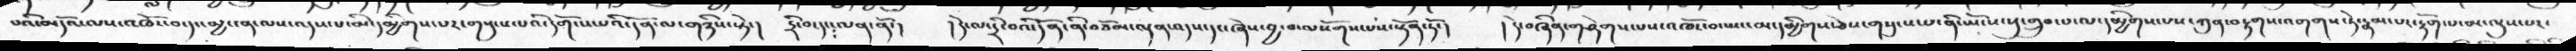པའི་མདོའ་ལས་འཁོར་བ་དང་མྱ་ངན་ལས་འདས་པ་མི་དམྱིགས་པར་གསུངས་པའི་དགོངས་པའི་དོན་ལ་གཉིས་སྟེ་།  དྲི་བ་དང་ལན་ནོ་།  །དེ་ལ་དྲི་བའི་དོན་ནི་བཅོམ་ལྡན་འདས་དང་ཞེས་བྱ་བ་ལསོགས་པས་སྟོན་ཏོ་།  །དེ་བཞིན་གཤེགས་པས་འཁོར་བ་ཡང་མ་དམྱིགས་ཅེས་གསུངས་པ་ནི་ཡོངས་སུ་གྲུབ་པ་ལ་དམྱིགས་པས་ཀུན་བརྟག་ས་འགགས་ཏེ་རྣམ་པར་རྟོག་པ་མ་ལུས་པར་
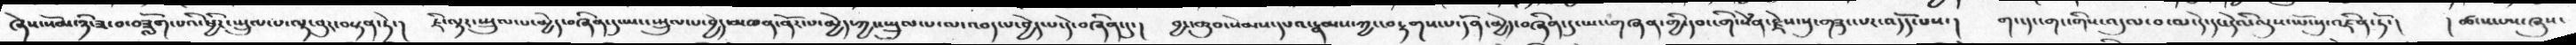ཞེས་སོམ་ཉི་ཟླ་བ་བཟློག་པའི་ཕྱིར་སྤྲུལ་པ་ལྟ་བུར་བསྟན་ཏེ་།  ཇི་ལྟར་སྤྲུལ་པ་མྱེད་བཞིན་དུ་ཡང་སྤྲུལ་པ་བྱེད་མཁན་ནོར་པ་མྱེད་ཀྱང་སྤྲུལ་པ་ལ་འབད་པ་བྱེད་པ་དེ་བཞིན་དུ་།  བྱང་ཆུབ་སེམས་དཔའ་རྣམས་ཀྱང་བརྟགས་པ་དོན་མྱེད་བཞིན་དུ་ཡང་གཞན་གྱི་དབང་གི་སེཾན་རྗེས་སུ་གཟུང་པར་འདོད་པས་།  གང་དང་གང་གིས་འདུལ་བ་ལ་དེ་དང་དེའི་ལུས་ཡོངསུ་འཛིན་ཏོ་།  ། ཚངས་ལ་ཞུས་
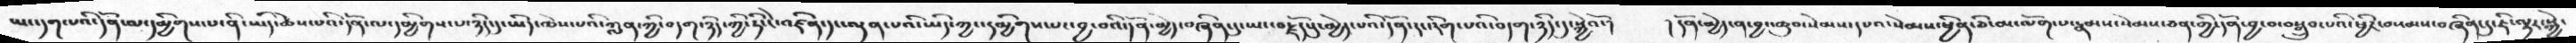ཡང་དག་པའི་དོན་ལ་དམྱིགས་པ་ནི་ཡིད་ཆེས་པའི་དོན་ལ་དམྱིགས་པ་ཉིད་དུ་ཡིད་ཆེས་པའི་ཀླན་ཀྱི་བདག་ཉིད་ཀྱི་ཏི་ངེ་འཛིན་དང་ལྡན་པའི་ཡིད་ཀྱང་དམྱིགས་པར་བྱ་བའི་དོན་མྱེད་བཞིན་དུ་ཡང་བརྗོད་དུ་མྱེད་པའི་དོན་དང་རིག་པའི་བདག་ཉིད་དུ་སྐྱེའོ་།  །དོན་མྱེད་ན་བྱང་ཆུབ་སེམས་དཔའ་སེམས་ཕྱིན་ཅི་མ་ལོག་པ་རྣམས་སེམས་ཅན་གྱི་དོན་བྱ་བ་བསྒྲུབ་པའི་ཕྱིར་བསམས་བཞིན་དུ་ཇི་ལྟར་སྐྱེ་
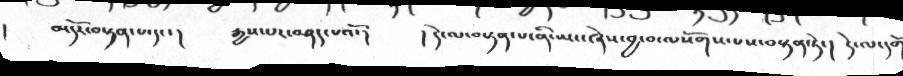།     མདོར་བསྟན་པ་དང་།   རྒྱས་པར་བཤད་པའོ་།   །དེ་ལ་བསྟན་པ་ནི་ཡང་ཞེས་བྱ་བ་ལསོགས་པས་བསྟན་ཏེ་།   དེ་ལ་དགོ
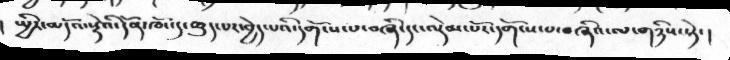།    སྤྱིར་མདོའ་སྟེའི་དོན་ཁོང་དུ་ཆུད་པར་བྱེད་པའི་དགོངས་པ་བཞི་དང་ལྡེམ་པོར་དགོངས་པ་བཞིའ་ལ་གཉིས་སྟེ་།
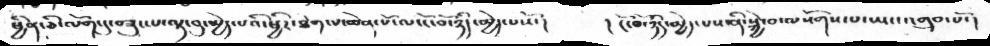ཕྱིན་ཅི་ལོག་དུ་བཟུང་པ་ལྟ་བུ་མྱེད་པའི་ཕྱིར་ཐེག་པ་ཆེན་པོ་ལ་ངོ་བོ་ཉིད་མྱེད་པསོ་།    །  ངོ་བོ་ཉིད་མྱེད་པས་ནི་སྐྱེ་བ་ལསོགས་པ་ཡང་འགྲུབ་པོ་།
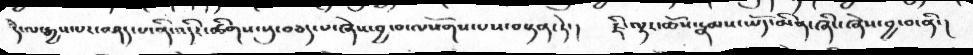དེ་ལ་རྒྱས་པར་བཤད་པ་ནི་འདིར་ཚིགས་སུ་བཅད་པ་ཞེས་བྱ་བ་ལསོགས་པས་བསྟན་ཏེ་།   ཇི་ལྟར་ཆོས་རྣམས་ཡོད་མིན་ཞིང་ཞེས་བྱ་བ་ནི་།
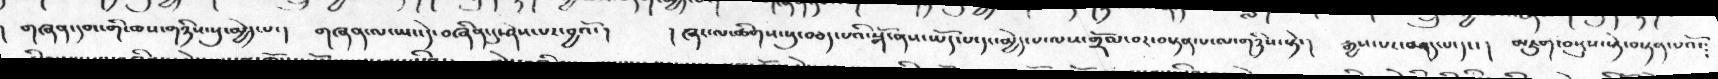གཞན་དབང་གི་ཆས་གཉིས་སུ་མྱེད་པ་།   གཞན་ལ་ཡང་དེ་བཞིན་དུ་ཤེས་པར་བྱའོ་།     ། ཞར་ལ་ཚིགས་སུ་བཅད་པའི་སྒོ་ནས་ཡོད་པ་དང་མྱེད་པ་ལས་གྲོལ་བར་བསྟན་པ་ལ་གཉིས་སྟེ་།    རྒྱས་པར་བཤད་པ་དང་།   མཇུག་བསྡུས་ཏེ་བསྟན་པའོ་།
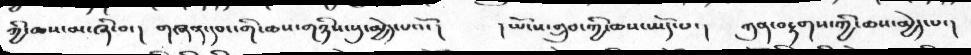ཀྱི་ཆས་མ་ཞི་བ་།   གཞན་དབང་གི་ཆས་གཉིས་སུ་མྱེད་པའོ་།   ། ཡོངས་གྲུབ་ཀྱི་ཆས་ཡོད་པ་།   ཀུན་བརྟགས་ཀྱི་ཆས་མྱེད་པ་།
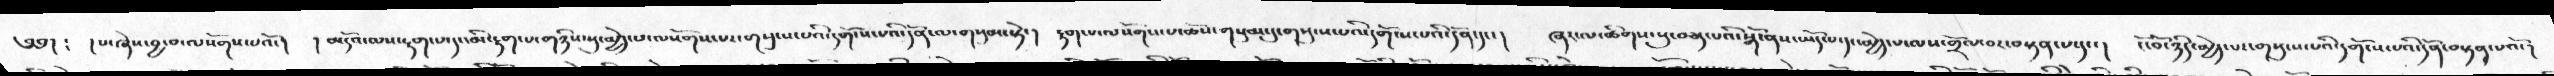༄༅། ༴  །པ་ཞེས་བྱ་བ་ལསོགས་པའོ་།  །མདོའ་ལས་རྟག་པ་དང་མི་རྟག་པ་གཉིས་སུ་མྱེད་པ་ལསོགས་པར་གསུངས་པའི་དགོངས་པའི་དོན་ལ་གསུམ་སྟེ་།   རྟག་པ་ལསོགས་པ་ཆོས་གསུམ་དུ་གསུངས་པའི་དགོངས་པའི་དོན་དང་།  ཞར་ལ་ཚིགས་སུ་བཅད་པའི་སྒོ་ནས་ཡོད་པ་དང་མྱེད་པ་ལས་གྲོལ་བར་བསྟན་པ་དང་།   ངོ་བོ་ཉིད་མྱེད་པར་གསུངས་པའི་དགོངས་པའི་དོན་བསྟན་པའོ་།
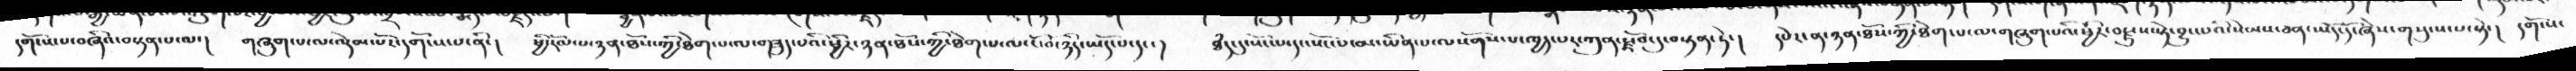དགོངས་པ་བཞིའ་བསྟན་པ་ལ་།   གཞུག་པ་ལ་ལྡེམ་པོར་དགོངས་པ་ནི་།   ཕྱི་རོལ་པ་ཉན་ཐོས་ཀྱི་ཐེག་པ་ལ་གཟུད་པའི་ཕྱིར་ཉན་ཐོས་ཀྱི་ཐེག་པ་ལ་ངོ་བོ་ཉིད་ཡོད་པ་དང་།    ཐཾད་དུ་སོང་པ་དང་སོང་པ་མ་ཡིན་པ་ལསོགས་པ་ཁྱད་པར་ཀུན་རྫོབ་དུ་བསྟན་ཏེ་།  དཔེར་ན་ཉན་ཐོས་ཀྱི་ཐེག་པ་ལ་གཞུག་པའི་ཕྱིར་བརྫུས་སྟེ་བྱུང་པའི་སེམས་ཅན་ཡོད་དོ་ཞེས་གསུངས་པ་སྟེ་།  དགོངས་
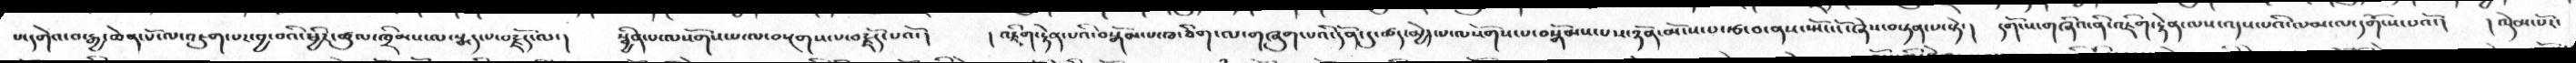པ་དགེའ་བ་རྒྱ་ཆེན་པོ་ལ་འཇུག་པར་བྱ་བའི་ཕྱིར་ཚུལ་ཁྲིམས་ལ་སྨད་པ་བརྗོད་ལ་།   སྦྱིན་པ་ལསོགས་པ་ལ་བསྔགས་པ་བརྗོད་པའོ་།  །འཇིག་རྟེན་པའི་བསྒོམ་པ་ཁ་ཅིག་ལ་གཞུག་པའི་དོན་དུ་ཚད་མྱེད་པ་ལསོགས་པ་བསྒོམ་པས་ཉོན་མོངས་པ་རྩ་བ་ནས་སྤོང་ངོ་ཞེས་བསྟན་པ་སྟེ་། དགོངས་གཞིའ་ནི་འཇིག་རྟེན་ལས་འདས་པའི་ལམ་ལ་དགོངས་པའོ་།  །ལྡེམ་པོར་
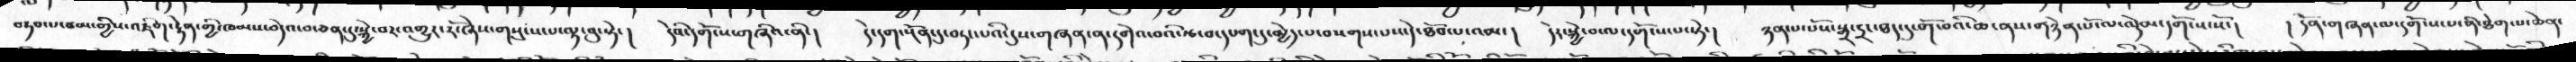བཏབ་པ་རྩམ་གྱིས་འཇིག་རྟེན་གྱི་ཁམས་བདེའ་བ་ཅན་དུ་སྐྱེ་བར་འགྱུར་རོ་ཞེས་གསུངས་པ་ལྟ་བུ་སྟེ་།  དེའི་དགོངས་གཞིའ་ནི་།   དེ་དག་སྔོན་དུ་བཏང་པའི་དུས་གཞན་ན་དགེ་བའི་རྩ་བ་དཔག་དུ་མྱེད་པ་བསག་པས་དེ་ཐོབ་པ་འམ་།  དེར་སྐྱེ་བ་ལ་དགོངས་པ་སྟེ་།   ཉན་པ་པོས་སྒྲ་དྲང་ཐད་དུ་གོ་བའི་ཆ་ནས་གཉེན་པོ་ལ་ལྡེམ་དགོངས་་སོ་།  །དོན་གཞན་མ་དགོངས་པ་ནི་ཐེག་པ་ཆེན་
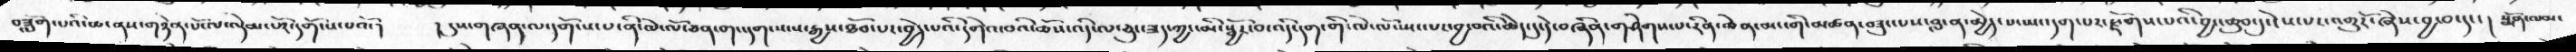བཟློག་པའི་ཆ་ནས་གཉེན་པོ་ལ་ལྡེམ་པོར་དགོངས་པའོ་།  ། དུས་གཞན་ལ་དགོངས་པ་ནི་ལེ་ལོ་ཅན་གང་དག་སངས་རྒྱས་ཐོབ་པར་བྱེད་པའི་དགེའ་བའི་ཆོས་འདི་ལ་ཅུང་ཟད་ཀྱང་མི་སྦྱོར་བ་འདི་དག་གི་ལེ་ལོ་སྤང་པར་བྱ་བའི་ཆེད་དུ་དེ་བཞིན་གཤེགས་པ་རིན་ཆེན་མང་གི་མཚན་བཟུང་པས་བླ་ན་མྱེད་པ་ཡང་དག་པར་རྫོགས་པའི་བྱང་ཆུབ་དུ་ངེས་པར་འགྱུརོ་ཞེས་བྱ་བ་དང་།  སྨོན་ལམ་
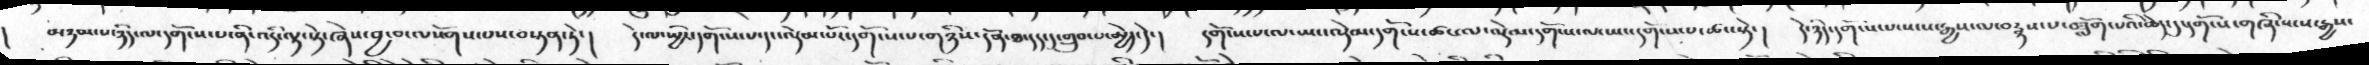།  མཉམ་པ་ཉིད་ལ་དགོངས་པ་ནི་འདི་ལྟ་སྟེ་ཞེས་བྱ་བ་ལསོགས་པས་བསྟན་ཏེ་།  དེ་ལ་སྤྱིར་དགོངས་པ་དང་ལྡེམ་པོར་དགོངས་པ་གཉིས་དོན་ཐ་དད་དུ་གྲུབ་པ་མྱེད་དེ་།  དགོངས་པ་ལ་ཡང་ལྡེམ་དགོངས་ཚང་ལ་ལྡེམ་དགོངས་ལ་ཡང་དགོངས་པ་ཚང་སྟེ་།  དེ་ཉིད་དགོངས་པ་སངས་རྒྱས་ལ་བརྙས་པ་བཟློག་པའི་ཆེད་དུ་དགོངས་གཞི་སངས་རྒྱས་
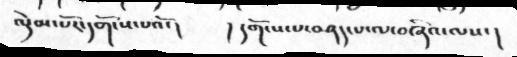ལྡེམ་པོར་དགོངས་པའོ་།  ། དགོངས་པ་བཤད་པ་ལ་བཞིའ་ལས་།
